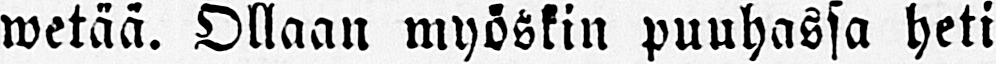wetää. Ollaan myöskin puuhassa heti
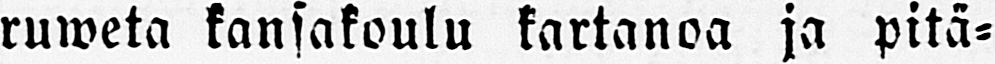ruweta kansakoulu kartanoa ja pitä-
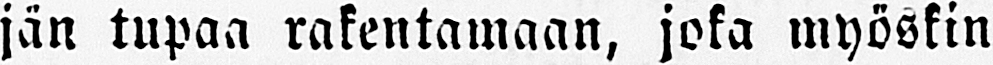jän tupaa rakentamaan, joka myöskin
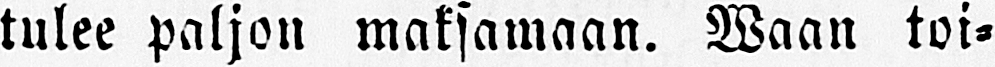tulee paljon maksamaan. Waan toi-
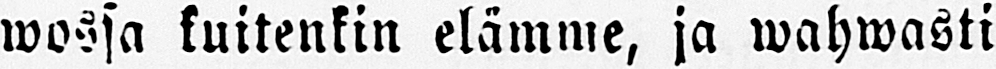wossa kuitenkin elämme, ja wahwasti
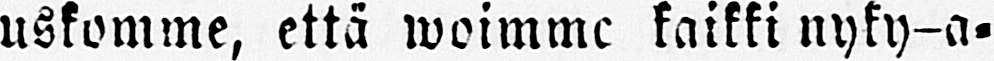uskomme, että woimme kaikki nyky-a-
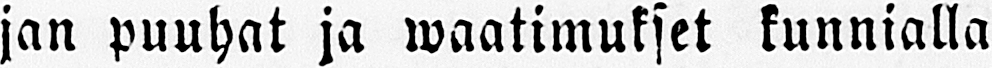jan puuhat ja waatimukset kunnialla
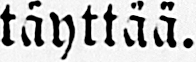täyttää.
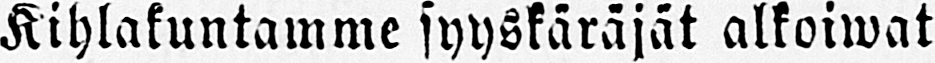Kihlakuntamme syyskäräjät alkoiwat
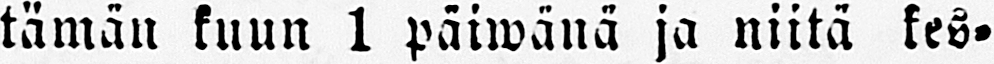tämän kuun 1 päiwänä ja niitä kes-
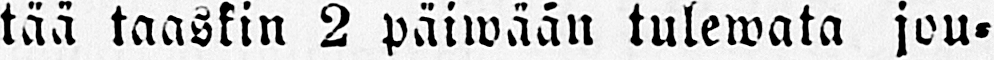tää taaskin 2 päiwään tulewata jou-
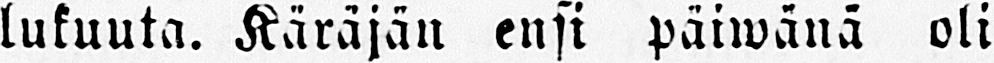lukuuta. Käräjän ensi päiwänä oli
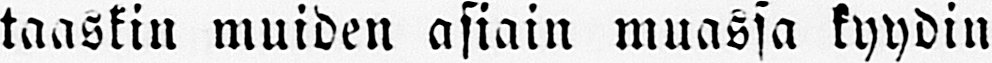taaskin muiden asiain muassa kyydin
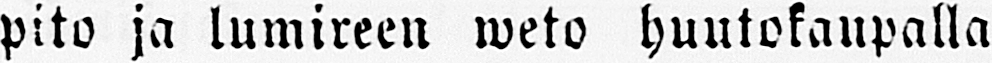pito ja lumireen weto huutokaupalla
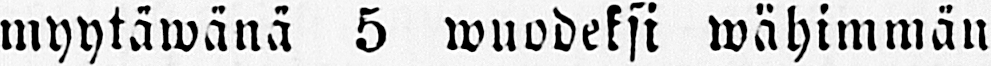myytäwänä 5 wuodeksi wähimmän
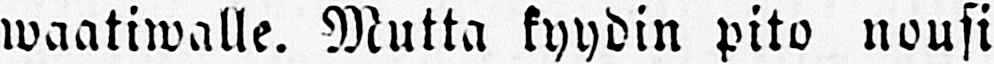waatiwalle. Mutta kyydin pito nousi
